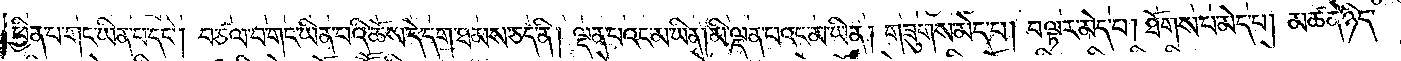ཕྱིན་པ་གང་ཡིན་པ་དང༌། བཙལ་བ་གང་ཡིན་པའི་ཆོས་དེ་དག་ཐམས་ཅད་ནི། ལྡན་པའང་མ་ཡིན་མི་ལྡན་པའང་མ་ཡིན། གཟུགས་མེད་པ། བལྟར་མེད་པ། ཐོགས་པ་མེད་པ། མཚན་ཉིད་
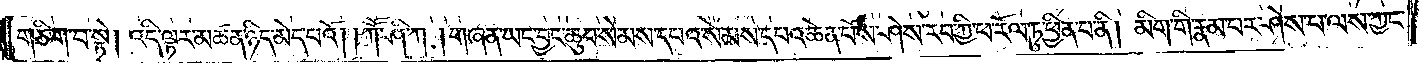གཅིག་པ་སྟེ། འདི་ལྟར་མཚན་ཉིད་མེད་པའོ། །ཀཽ་ཤི་ཀ །གཞན་ཡང་བྱང་ཆུབ་སེམས་དཔའ་སེམས་དཔའ་ཆེན་པོས་ཤེས་རབ་ཀྱི་ཕ་རོལ་ཏུ་ཕྱིན་པ་ནི། མིག་གི་རྣམ་པར་ཤེས་པ་ལས་ཀྱང་
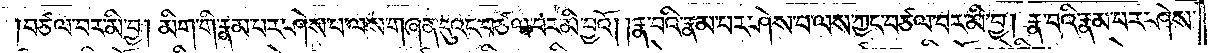བཙལ་བར་མི་བྱ། མིག་གི་རྣམ་པར་ཤེས་པ་ལས་གཞན་དུའང་བཙལ་བར་མི་བྱའོ། །རྣ་བའི་རྣམ་པར་ཤེས་པ་ལས་ཀྱང་བཙལ་བར་མི་བྱ། རྣ་བའི་རྣམ་པར་ཤེས་
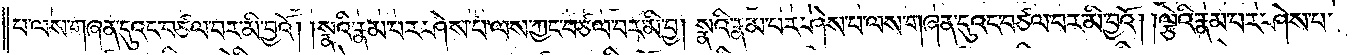པ་ལས་གཞན་དུའང་བཙལ་བར་མི་བྱའོ། །སྣའི་རྣམ་པར་ཤེས་པ་ལས་ཀྱང་བཙལ་བར་མི་བྱ། སྣའི་རྣམ་པར་ཤེས་པ་ལས་གཞན་དུའང་བཙལ་བར་མི་བྱའོ། །ལྕེའི་རྣམ་པར་ཤེས་པ་
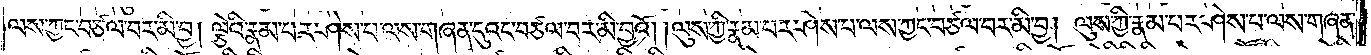ལས་ཀྱང་བཙལ་བར་མི་བྱ། ལྕེའི་རྣམ་པར་ཤེས་པ་ལས་གཞན་དུའང་བཙལ་བར་མི་བྱའོ། །ལུས་ཀྱི་རྣམ་པར་ཤེས་པ་ལས་ཀྱང་བཙལ་བར་མི་བྱ། ལུས་ཀྱི་རྣམ་པར་ཤེས་པ་ལས་གཞན་
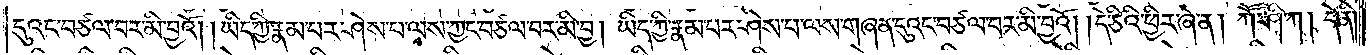དུའང་བཙལ་བར་མི་བྱའོ། །ཡིད་ཀྱི་རྣམ་པར་ཤེས་པ་ལས་ཀྱང་བཙལ་བར་མི་བྱ། ཡིད་ཀྱི་རྣམ་པར་ཤེས་པ་ལས་གཞན་དུའང་བཙལ་བར་མི་བྱའོ། །དེ་ཅིའི་ཕྱིར་ཞེ་ན། ཀཽ་ཤི་ཀ། དེ་ནི།
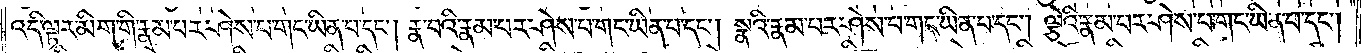འདི་ལྟར་མིག་གི་རྣམ་པར་ཤེས་པ་གང་ཡིན་པ་དང༌། རྣ་བའི་རྣམ་པར་ཤེས་པ་གང་ཡིན་པ་དང༌། སྣའི་རྣམ་པར་ཤེས་པ་གང་ཡིན་པ་དང༌། ལྕེའི་རྣམ་པར་ཤེས་པ་གང་ཡིན་པ་དང༌།
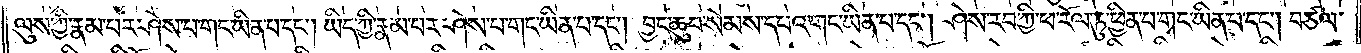ལུས་ཀྱི་རྣམ་པར་ཤེས་པ་གང་ཡིན་པ་དང༌། ཡིད་ཀྱི་རྣམ་པར་ཤེས་པ་གང་ཡིན་པ་དང༌། བྱང་ཆུབ་སེམས་དཔའ་གང་ཡིན་པ་དང༌། ཤེས་རབ་ཀྱི་ཕ་རོལ་ཏུ་ཕྱིན་པ་གང་ཡིན་པ་དང༌། བཙལ་
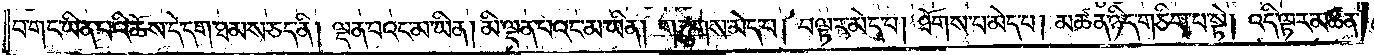བ་གང་ཡིན་པའི་ཆོས་དེ་དག་ཐམས་ཅད་ནི། ལྡན་པའང་མ་ཡིན་མི་ལྡན་པའང་མ་ཡིན། གཟུགས་མེད་པ། །བལྟར་མེད་པ། ཐོགས་པ་མེད་པ། མཚན་ཉིད་གཅིག་པ་སྟེ། འདི་ལྟར་མཚན་
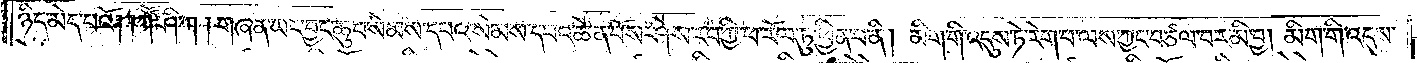ཉིད་མེད་པའོ། །ཀཽ་ཤི་ཀ །གཞན་ཡང་བྱང་ཆུབ་སེམས་དཔའ་སེམས་དཔའ་ཆེན་པོས་ཤེས་རབ་ཀྱི་ཕ་རོལ་ཏུ་ཕྱིན་པ་ནི། མིག་གི་འདུས་ཏེ་རེག་པ་ལས་ཀྱང་བཙལ་བར་མི་བྱ། མིག་གི་འདུས་
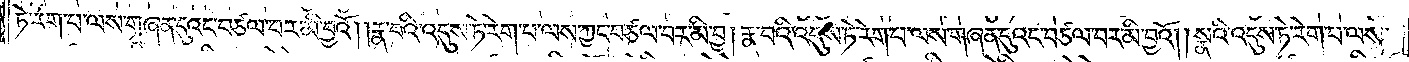ཏེ་རེག་པ་ལས་གཞན་དུའང་བཙལ་བར་མི་བྱའོ། །རྣ་བའི་འདུས་ཏེ་རེག་པ་ལས་ཀྱང་བཙལ་བར་མི་བྱ། རྣ་བའི་འདུས་ཏེ་རེག་པ་ལས་གཞན་དུའང་བཙལ་བར་མི་བྱའོ། །སྣའི་འདུས་ཏེ་རེག་པ་ལས་
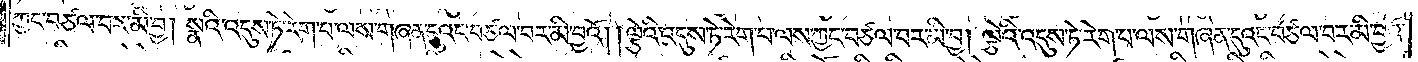ཀྱང་བཙལ་བར་མི་བྱ། སྣའི་འདུས་ཏེ་རེག་པ་ལས་གཞན་དུའང་བཙལ་བར་མི་བྱའོ། །ལྕེའི་འདུས་ཏེ་རེག་པ་ལས་ཀྱང་བཙལ་བར་མི་བྱ། ལྕེའི་འདུས་ཏེ་རེག་པ་ལས་གཞན་དུའང་བཙལ་བར་མི་བྱའོ༎
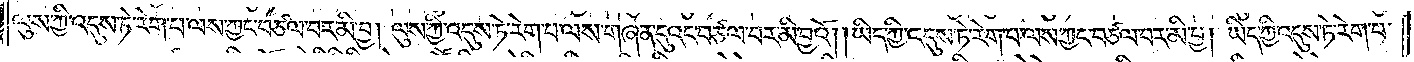ལུས་ཀྱི་འདུས་ཏེ་རེག་པ་ལས་ཀྱང་བཙལ་བར་མི་བྱ། ལུས་ཀྱི་འདུས་ཏེ་རེག་པ་ལས་གཞན་དུའང་བཙལ་བར་མི་བྱའོ། །ཡིད་ཀྱི་འདུས་ཏེ་རེག་པ་ལས་ཀྱང་བཙལ་བར་མི་བྱ། ཡིད་ཀྱི་འདུས་ཏེ་རེག་པ་
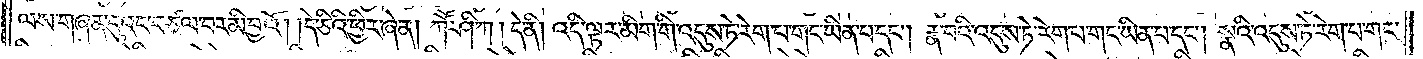ལས་གཞན་དུའང་བཙལ་བར་མི་བྱའོ། །དེ་ཅིའི་ཕྱིར་ཞེ་ན། ཀཽ་ཤི་ཀ །དེ་ནི། འདི་ལྟར་མིག་གི་འདུས་ཏེ་རེག་པ་གང་ཡིན་པ་དང༌། རྣ་བའི་འདུས་ཏེ་རེག་པ་གང་ཡིན་པ་དང༌། སྣའི་འདུས་ཏེ་རེག་པ་གང་
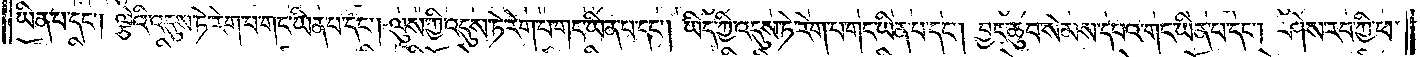ཡིན་པ་དང༌། ལྕེའི་འདུས་ཏེ་རེག་པ་གང་ཡིན་པ་དང༌། ལུས་ཀྱི་འདུས་ཏེ་རེག་པ་གང་ཡིན་པ་དང༌། ཡིད་ཀྱི་འདུས་ཏེ་རེག་པ་གང་ཡིན་པ་དང༌། བྱང་ཆུབ་སེམས་དཔའ་གང་ཡིན་པ་དང༌། ཤེས་རབ་ཀྱི་ཕ་
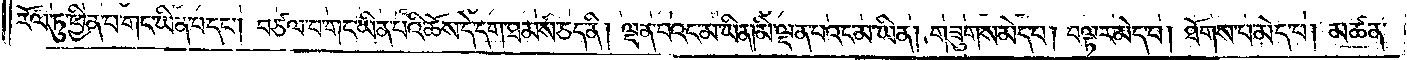རོལ་ཏུ་ཕྱིན་པ་གང་ཡིན་པ་དང༌། བཙལ་བ་གང་ཡིན་པའི་ཆོས་དེ་དག་ཐམས་ཅད་ནི། ལྡན་པའང་མ་ཡིན། མི་ལྡན་པའང་མ་ཡིན། གཟུགས་མེད་པ། བལྟར་མེད་པ། ཐོགས་པ་མེད་པ། མཚན་
